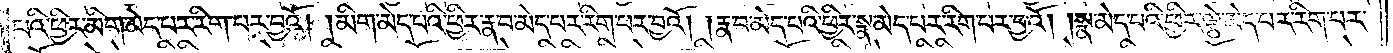པའི་ཕྱིར་མིག་མེད་པར་རིག་པར་བྱའོ། །མིག་མེད་པའི་ཕྱིར་རྣ་བ་མེད་པར་རིག་པར་བྱའོ། །རྣ་བ་མེད་པའི་ཕྱིར་སྣ་མེད་པར་རིག་པར་བྱའོ། །སྣ་མེད་པའི་ཕྱིར་ལྕེ་མེད་པར་རིག་པར་
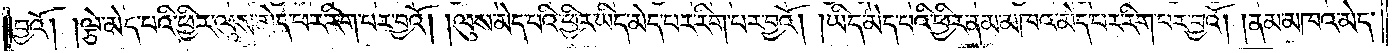བྱའོ། །ལྕེ་མེད་པའི་ཕྱིར་ལུས་མེད་པར་རིག་པར་བྱའོ། །ལུས་མེད་པའི་ཕྱིར་ཡིད་མེད་པར་རིག་པར་བྱའོ། །ཡིད་མེད་པའི་ཕྱིར་ནམ་མཁའ་མེད་པར་རིག་པར་བྱའོ། །ནམ་མཁའ་མེད་
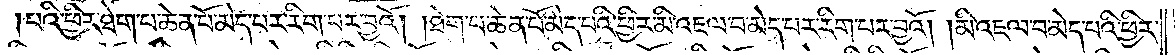པའི་ཕྱིར་ཐེག་པ་ཆེན་པོ་མེད་པར་རེག་པར་བྱའོ། །ཐེག་པ་ཆེན་པོ་མེད་པའི་ཕྱིར་མི་འཇལ་བ་མེད་པར་རིག་པར་བྱའོ། །མི་འཇལ་བ་མེད་པའི་ཕྱིར་
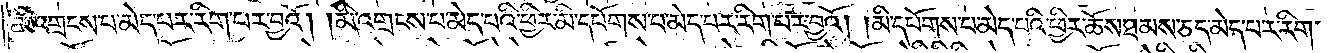མི་འགྲངས་པ་མེད་པར་རིག་པར་བྱའོ། །མི་འགྲངས་པ་མེད་པའི་ཕྱིར་མི་དཔོགས་པ་མེད་པར་རིག་པར་བྱའོ། །མི་དཔོགས་པ་མེད་པའི་ཕྱིར་ཆོས་ཐམས་ཅད་མེད་པར་རིག་
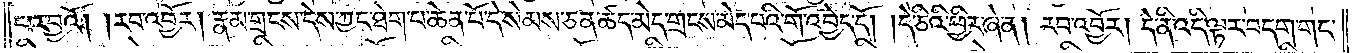པར་བྱའོ། །རབ་འབྱོར། རྣམ་གྲངས་དེས་ཀྱང་ཐེག་པ་ཆེན་པོ་དེ་སེམས་ཅན་ཚད་མེད་གྲངས་མེད་པའི་གོ་འབྱེད་དོ། །དེ་ཅིའི་ཕྱིར་ཞེ་ན། རབ་འབྱོར། དེ་ནི་འདི་ལྟར་བདག་གང་
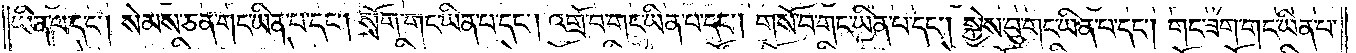ཡིན་པ་དང༌། སེམས་ཅན་གང་ཡིན་པ་དང༌། སྲོག་གང་ཡིན་པ་དང༌། འགྲོ་བ་གང་ཡིན་པ་དང༌། གསོ་བ་གང་ཡིན་པ་དང༌། སྐྱེས་བུ་གང་ཡིན་པ་དང༌། གང་ཟག་གང་ཡིན་པ་
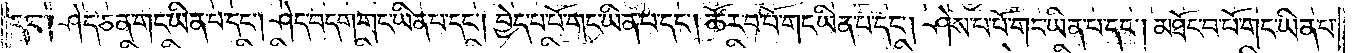དང༌། ཤེད་ཅན་གང་ཡིན་པ་དང༌། ཤེད་བདག་གང་ཡིན་པ་དང༌། བྱེད་པ་པོ་གང་ཡིན་པ་དང༌། ཚོར་བ་པོ་གང་ཡིན་པ་དང༌། ཤེས་པ་པོ་གང་ཡིན་པ་དང༌། མཐོང་བ་པོ་གང་ཡིན་པ་
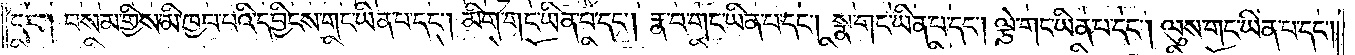དང༌། བསམ་གྱིས་མི་ཁྱབ་པའི་དབྱིངས་གང་ཡིན་པ་དང༌། མིག་གང་ཡིན་པ་དང༌། རྣ་བ་གང་ཡིན་པ་དང༌། སྣ་གང་ཡིན་པ་དང༌། །ལྕེ་གང་ཡིན་པ་དང༌། ལུས་གང་ཡིན་པ་དང༌།
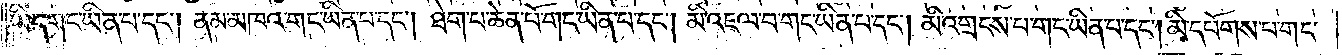ཡིད་གང་ཡིན་པ་དང༌། ནམ་མཁའ་གང་ཡིན་པ་དང༌། ཐེག་པ་ཆེན་པོ་གང་ཡིན་པ་དང༌། མི་འཇལ་པ་གང་ཡིན་པ་དང༌། མི་འགྲངས་པ་གང་ཡིན་པ་དང༌། མི་དཔོགས་པ་གང་
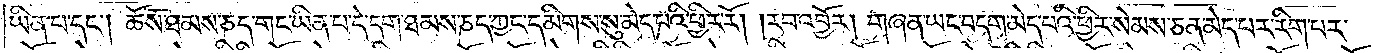ཡིན་པ་དང༌། ཆོས་ཐམས་ཅད་གང་ཡིན་པ་དེ་དག་ཐམས་ཅད་ཀྱང་དམིགས་སུ་མེད་པའི་ཕྱིར་རོ། །རབ་འབྱོར། གཞན་ཡང་བདག་མེད་པའི་ཕྱིར་སེམས་ཅན་མེད་པར་རིག་པར་
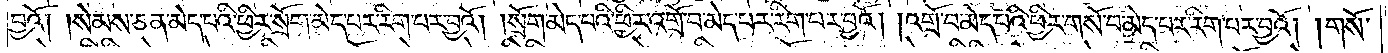བྱའོ། །སེམས་ཅན་མེད་པའི་ཕྱིར་སྲོག་མེད་པར་རིག་པར་བྱའོ། །སྲོག་མེད་པའི་ཕྱིར་འགྲོ་བ་མེད་པར་རིག་པར་བྱའོ། །འགྲོ་བ་མེད་པའི་ཕྱིར་གསོ་བ་མེད་པར་རིག་པར་བྱའོ། །གསོ་
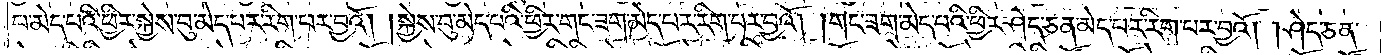བ་མེད་པའི་ཕྱིར་སྐྱེས་བུ་མེད་པར་རིག་པར་བྱའོ། །སྐྱེས་བུ་མེད་པའི་ཕྱིར་གང་ཟག་མེད་པར་རིག་པར་བྱའོ། །གང་ཟག་མེད་པའི་ཕྱིར་ཤེད་ཅན་མེད་པར་རིག་པར་བྱའོ། །ཤེད་ཅན་
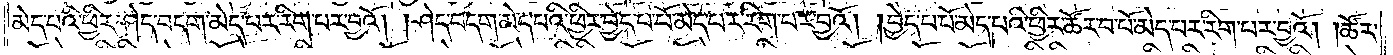མེད་པའི་ཕྱིར་ཤེད་བདག་མེད་པར་རིག་པར་བྱའོ། །ཤེད་བདག་མེད་པའི་ཕྱིར་བྱེད་པ་པོ་མེད་པར་རིག་པར་བྱའོ། །བྱེད་པ་པོ་མེད་པའི་ཕྱིར་ཚོར་བ་བོ་མེད་པར་རིག་པར་བྱའོ། །ཚོར་
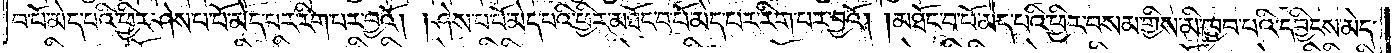བ་པོ་མེད་པའི་ཕྱིར་ཤེས་པ་པོ་མེད་པར་རིག་པར་བྱའོ། །ཤེས་པ་པོ་མེད་པའི་ཕྱིར་མཐོང་བ་པོ་མེད་པར་རིག་པར་བྱའོ། །མཐོང་བ་པོ་མེད་པའི་ཕྱིར་བསམ་གྱིས་མི་ཁྱབ་པའི་དབྱིངས་མེད་
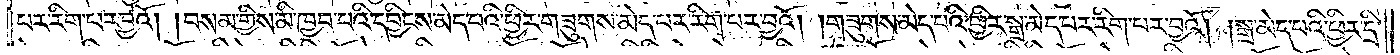པར་རིག་པར་བྱའོ། །བསམ་གྱིས་མི་ཁྱབ་པའི་དབྱིངས་མེད་པའི་ཕྱིར་གཟུགས་མེད་པར་རིག་པར་བྱའོ། །གཟུགས་མེད་པའི་ཕྱིར་སྒྲ་མེད་པར་རིག་པར་བྱའོ། །སྒྲ་མེད་པའི་ཕྱིར་དྲི་
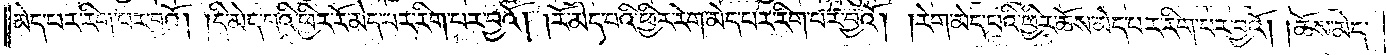མེད་པར་རིག་པར་བྱའོ། །དྲི་མེད་པའི་ཕྱིར་རོ་མེད་པར་རིག་པར་བྱའོ། །རོ་མེད་པའི་ཕྱིར་རེག་མེད་པར་རིག་པར་བྱའོ། །རེག་མེད་པའི་ཕྱིར་ཆོས་མེད་པར་རིག་པར་བྱའོ། ཆོས་མེད་
